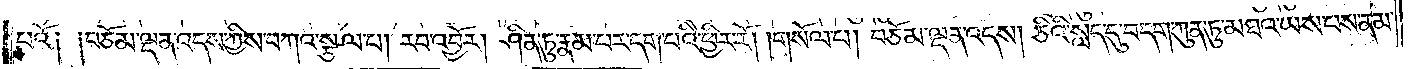པའོ༑ ༑བཅོམ་ལྡན་འདས་ཀྱིས་བཀའ་སྩལ་པ། རབ་འབྱོར། ཤིན་ཏུ་རྣམ་པར་དག་པའི་ཕྱིར་རོ། །གསོལ་པ། བཅོམ་ལྡན་འདས། ཅིའི་སླད་དུ་བདག་ཀུན་ཏུ་མཐའ་ཡས་པས་ནམ་
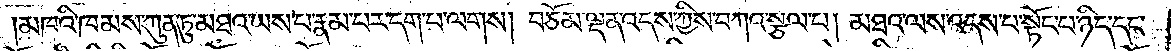མཁའི་ཁམས་ཀུན་ཏུ་མཐའ་ཡས་པ་རྣམ་པར་དག་པ་ལགས། བཅོམ་ལྡན་འདས་ཀྱིས་བཀའ་སྩལ་པ། མཐའ་ལས་འདས་པ་སྟོང་པ་ཉིད་དང་
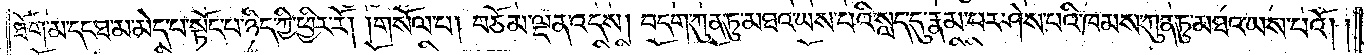ཐོག་མ་དང་ཐ་མ་མེད་པ་སྟོང་པ་ཉིད་ཀྱི་ཕྱིར་རོ། །གསོལ་པ། བཅོམ་ལྡན་འདས། བདག་ཀུན་ཏུ་མཐའ་ཡས་པའི་སླད་དུ་རྣམ་པར་ཤེས་པའི་ཁམས་ཀུན་ཏུ་མཐའ་ཡས་པའོ། །
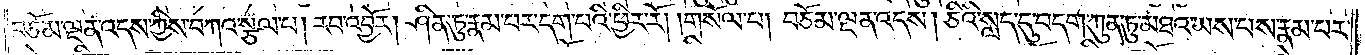བཅོམ་ལྡན་འདས་ཀྱིས་བཀའ་སྩལ་པ། རབ་འབྱོར། ཤིན་ཏུ་རྣམ་པར་དག་པའི་ཕྱིར་རོ། །གསོལ་པ། བཅོམ་ལྡན་འདས། ཅིའི་སླད་དུ་བདག་ཀུན་ཏུ་མཐའ་ཡས་པས་རྣམ་པར་
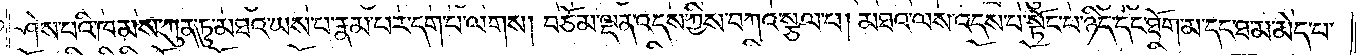ཤེས་པའི་ཁམས་ཀུན་ཏུ་མཐའ་ཡས་པ་རྣམ་པར་དག་པ་ལགས། བཅོམ་ལྡན་འདས་ཀྱིས་བཀའ་སྩལ་པ། མཐའ་ལས་འདས་པ་སྟོང་པ་ཉིད་དང་ཐོག་མ་དང་ཐ་མ་མེད་པ་
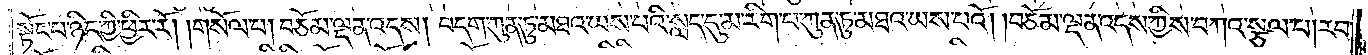སྟོང་པ་ཉིད་ཀྱི་ཕྱིར་རོ། །གསོལ་པ། བཅོམ་ལྡན་འདས། བདག་ཏུ་ཀུན་ཏུ་མཐའ་ཡས་པའི་སླད་དུ་མ་རིག་པ་ཀུན་ཏུ་མཐའ་ཡས་པའོ། །བཅོམ་ལྡན་འདས་ཀྱིས་བཀའ་སྩལ་པ། རབ་
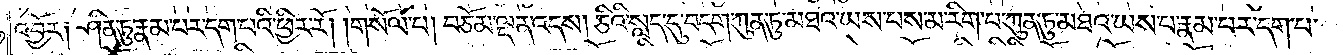འབྱོར༑ ཤིན་ཏུ་རྣམ་པར་དག་པའི་ཕྱིར་རོ། །གསོལ་པ། བཅོམ་ལྡན་འདས། ཅིའི་སླད་དུ་བདག་ཀུན་ཏུ་མཐའ་ཡས་པས་མ་རིག་པ་ཀུན་ཏུ་མཐའ་ཡས་པ་རྣམ་པར་དག་པ་
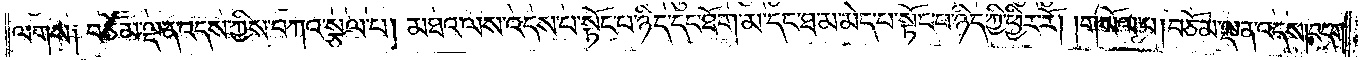ལགས༑ བཅོམ་ལྡན་འདས་ཀྱིས་བཀའ་སྩལ་པ། མཐའ་ལས་འདས་པ་སྟོང་པ་ཉིད་དང་ཐོག་མ་དང་ཐ་མ་མེད་པ་སྟོང་པ་ཉིད་ཀྱི་ཕྱིར་རོ། །གསོལ་པ། བཅོམ་ལྡན་འདས། བདག་
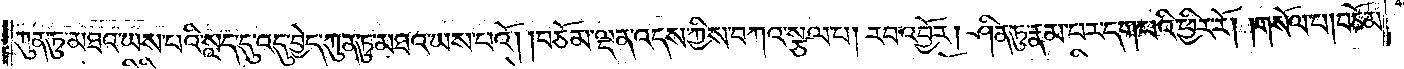ཀུན་ཏུ་མཐའ་ཡས་པའི་སླད་དུ་འདུ་བྱེད་ཀུན་ཏུ་མཐའ་ཡས་པའོ། །བཅོམ་ལྡན་འདས་ཀྱིས་བཀའ་སྩལ་པ། རབ་འབྱོར། ཤིན་ཏུ་རྣམ་པར་དག་པའི་ཕྱིར་རོ། །གསོལ་པ། བཅོམ་
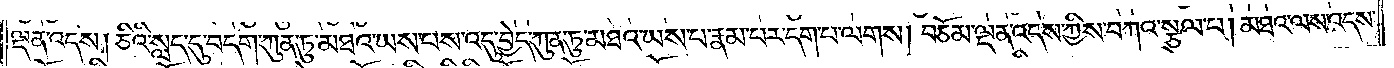ལྡན་འདས། ཅིའི་སླད་དུ་བདག་ཀུན་ཏུ་མཐའ་ཡས་པས་འདུ་བྱེད་ཀུན་ཏུ་མཐའ་ཡས་པ་རྣམ་པར་དག་པ་ལགས། བཅོམ་ལྡན་འདས་ཀྱིས་བཀའ་སྩལ་པ། མཐའ་ལས་འདས་
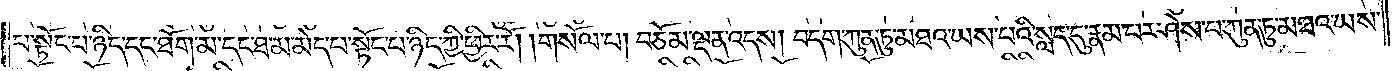པ་སྟོང་པ་ཉིད་དང་ཐོག་མ་དང་ཐ་མ་མེད་པ་སྟོང་པ་ཉིད་ཀྱི་ཕྱིར་རོ། །གསོལ་པ། བཅོམ་ལྡན་འདས། བདག་ཀུན་ཏུ་མཐའ་ཡས་པའི་སླད་དུ་རྣམ་པར་ཤེས་པ་ཀུན་ཏུ་མཐའ་ཡས་
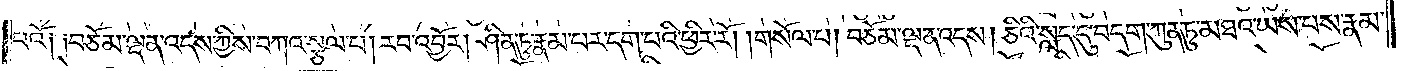པའོ༑ ༑བཅོམ་ལྡན་འདས་ཀྱིས་བཀའ་སྩལ་པ། རབ་འབྱོར། ཤིན་ཏུ་རྣམ་པར་དག་པའི་ཕྱིར་རོ། །གསོལ་པ། བཅོམ་ལྡན་འདས། ཅིའི་སླད་དུ་བདག་ཀུན་ཏུ་མཐའ་ཡས་པས་རྣམ་
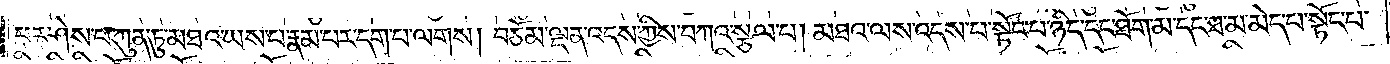པར་ཤེས་པ་ཀུན་ཏུ་མཐའ་ཡས་པ་རྣམ་པར་དག་པ་ལགས། བཅོམ་ལྡན་འདས་ཀྱིས་བཀའ་སྩལ་པ། མཐའ་ལས་འདས་པ་སྟོང་པ་ཉིད་དང་ཐོག་མ་དང་ཐ་མ་མེད་པ་སྟོང་པ་
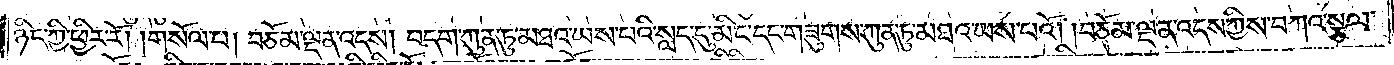ཉིད་ཀྱི་ཕྱིར་རོ། །གསོལ་པ། བཅོམ་ལྡན་འདས། བདག་ཀུན་ཏུ་མཐའ་ཡས་པའི་སླད་དུ་མིང་དང་གཟུགས་ཀུན་ཏུ་མཐའ་ཡས་པའོ། །བཅོམ་ལྡན་འདས་ཀྱིས་བཀའ་སྩལ་
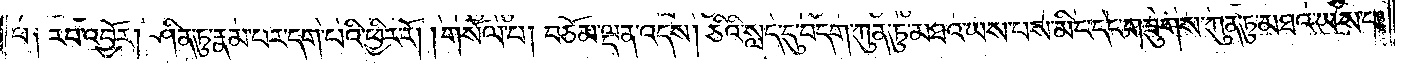པ༑ རབ་འབྱོར། ཤིན་ཏུ་རྣམ་པར་དག་པའི་ཕྱིར་རོ། །གསོལ་པ། བཅོམ་ལྡན་འདས། ཅིའི་སླད་དུ་བདག་ཀུན་ཏུ་མཐའ་ཡས་པས་མིང་དང་གཟུགས་ཀུན་ཏུ་མཐའ་ཡས་པ་
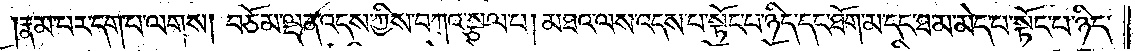རྣམ་པར་དག་པ་ལགས། བཅོམ་ལྡན་འདས་ཀྱིས་བཀའ་སྩལ་པ། མཐའ་ལས་འདས་པ་སྟོང་པ་ཉིད་དང་ཐོག་མ་དང་ཐ་མ་མེད་པ་སྟོང་པ་ཉིད་
